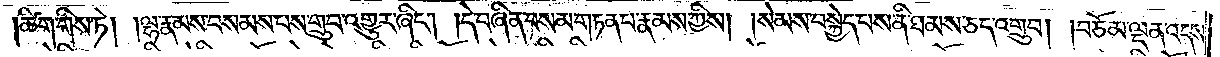།ཚིག་གིས་ཏེ། །ལྷ་རྣམས་བསམས་པས་གྲུབ་འགྱུར་ཞིང༌། །དེ་བཞིན་བསམ་གཏན་པ་རྣམས་ཀྱིས། །སེམས་བསྐྱེད་པས་ནི་ཐམས་ཅད་འགྲུབ། །བཅོམ་ལྡན་འདས་
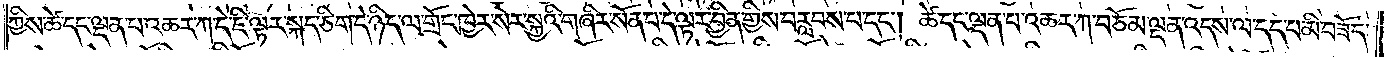ཀྱིས་ཚེ་དང་ལྡན་པ་འཆར་ཀ་དེ་ཇི་ལྟར་སྐད་ཅིག་དེ་ཉིད་ལ་གྲོང་ཁྱེར་སེར་སྐྱའི་གཞིར་སོན་པ་དེ་ལྟར་བྱིན་གྱིས་བརླབས་པ་དང༌། ཚེ་དང་ལྡན་པ་འཆར་ཀ་བཅོམ་ལྡན་འདས་ལ་དད་པ་མི་བཟོད་
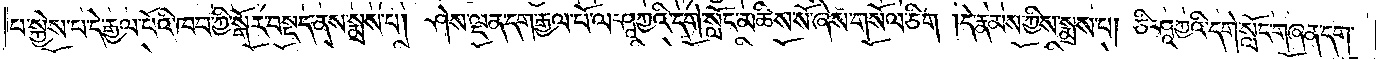པ་སྐྱེས་པ་དེ་རྒྱལ་པོའི་ཁབ་ཀྱི་སྒོར་བསྡད་ནས་སྨྲས་པ། ཤེས་ལྡན་དག་རྒྱལ་པོ་ལ་ཤཱཀྱའི་དགེ་སློང་མཆིས་སོ་ཞེས་གསོལ་ཅིག །དེ་རྣམས་ཀྱིས་སྨྲས་པ། ཅི་ཤཱཀྱའི་དགེ་སློང་གཞན་དག་
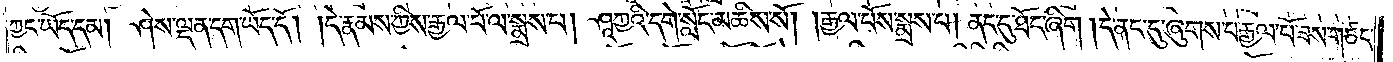ཀྱང་ཡོད་དམ། ཤེས་ལྡན་དག་ཡོད་དོ། །དེ་རྣམས་ཀྱིས་རྒྱལ་པོ་ལ་སྨྲས་པ། ཤཱཀྱའི་དགེ་སློང་མཆིས་སོ། །རྒྱལ་པོས་སྨྲས་པ། ནང་དུ་ཐོང་ཞིག །དེ་ནང་དུ་ཞུགས་པ་རྒྱལ་པོ་ཟས་གཙང་
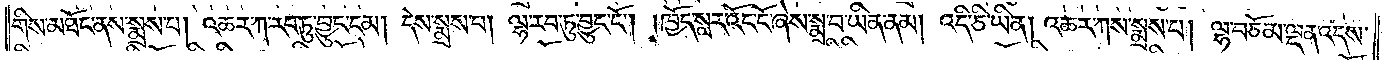གིས་མཐོང་ནས་སྨྲས་པ། འཆར་ཀ་རབ་ཏུ་བྱུང་ངམ། དེས་སྨྲས་པ། ལྷ་རབ་ཏུ་བྱུང་ངོ༌། །ཁྱོད་སླར་འོང་ངོ་ཞེས་སྨྲ་བ་ཡིན་ནམ། འདི་ཅི་ཡིན། འཆར་ཀས་སྨྲས་པ། ལྷ་བཅོམ་ལྡན་འདས་
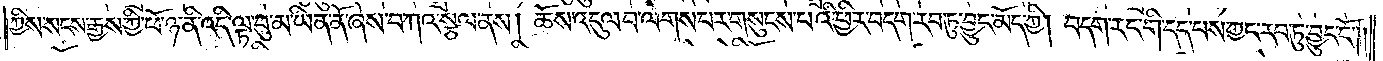ཀྱིས་སངས་རྒྱས་ཀྱི་ཕོ་ཉ་ནི་འདི་ལྟ་བུ་མ་ཡིན་ནོ་ཞེས་བཀའ་སྩལ་ནས། ཆོས་འདུལ་བ་ལེགས་པར་གསུངས་པའི་ཕྱིར་བདག་རབ་ཏུ་བྱུང་མོད་ཀྱི། བདག་རང་གི་དད་པས་ཀྱང་རབ་ཏུ་བྱུང་ངོ༌༎
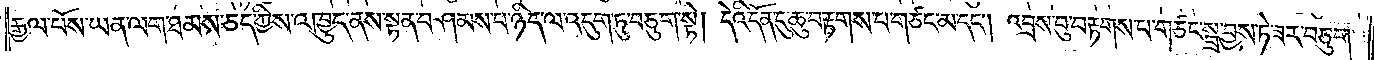རྒྱལ་པོས་ཡན་ལག་ཐམས་ཅད་ཀྱིས་འཁྱུད་ནས་སྟན་བཤམས་པ་ཉིད་ལ་འདུག་ཏུ་བཅུག་སྟེ། དེའི་དོན་དུ་ཆུ་བརྟགས་པ་གཙང་མ་དང༌། འབྲས་བུ་བརྟགས་པ་གཙང་སྦྲ་བྱས་ཏེ་ཟར་བཅུག་
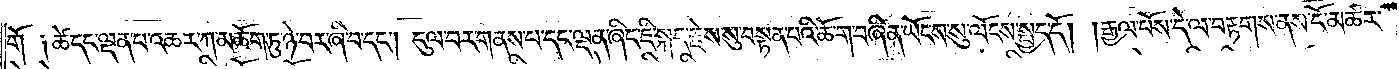གོ  ༑ཚེ་དང་ལྡན་པ་འཆར་ཀ་མཆོག་ཏུ་ཉེ་བར་ཞི་བ་དང༌། དུལ་བར་གནས་པ་དང་ལྡན་ཞིང་ཇི་སྐད་རྗེས་སུ་བསྟན་པའི་ཆོ་ག་བཞིན་ཡོངས་སུ་ལོངས་སྤྱད་དོ། །རྒྱལ་པོས་དེ་ལ་བརྟགས་ནས་ངོ་མཚར་
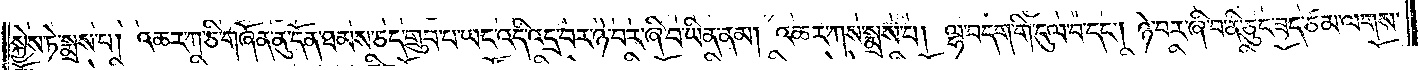སྐྱེས་ཏེ་སྨྲས་པ། འཆར་ཀ་ཅི་གཞོན་ནུ་དོན་ཐམས་ཅད་གྲུབ་པ་ཡང་འདི་འདྲ་བར་ཉེ་བར་ཞི་བ་ཡིན་ནམ། འཆར་ཀས་སྨྲས་པ། ལྷ་བདག་གི་དུལ་བ་དང༌། ཉེ་བར་ཞི་བ་ནི་ཅུང་ཟད་ཙམ་ལགས་
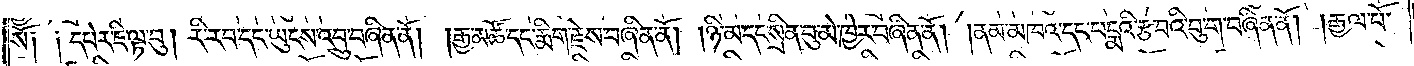སོ༑ ༑དཔེར་ཇི་ལྟ་བུ། རི་རབ་དང་ཡུངས་འབྲུ་བཞིན་ནོ། །རྒྱ་མཚོ་དང་རྨིག་རྗེས་བཞིན་ནོ། །ཉི་མ་དང་སྲིན་བུ་མེ་ཁྱེར་བཞིན་ནོ། །ནམ་མཁའ་དང་པདྨའི་རྩ་བའི་བུ་ག་བཞིན་ནོ། །རྒྱལ་པོ་
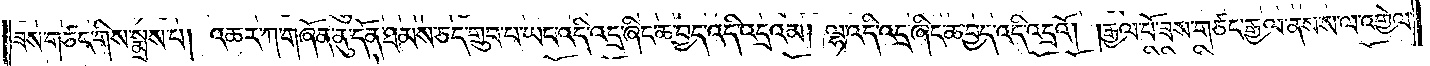ཟས་གཙང་གིས་སྨྲས་པ། འཆར་ཀ་གཞོན་ནུ་དོན་ཐམས་ཅད་གྲུབ་པ་ཡང་འདི་འདྲ་ཞིང་ཆ་བྱད་འདི་འདྲའམ། ལྷ་འདི་འདྲ་ཞིང་ཆ་བྱད་འདི་འདྲའོ། །རྒྱལ་པོ་ཟས་གཙང་རྒྱལ་ནས་ས་ལ་འགྱེལ་
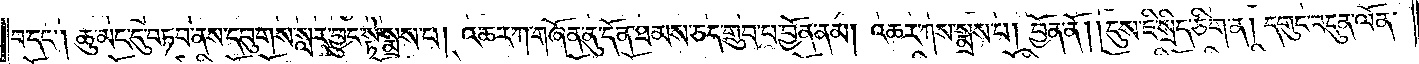བ་དང༌། ཆུ་མང་དུ་བཏབ་ནས་དབུགས་སླར་བྱུང་སྟེ་སྨྲས་པ། འཆར་ཀ་གཞོན་ནུ་དོན་ཐམས་ཅད་གྲུབ་པ་བྱོན་ནམ། འཆར་ཀས་སྨྲས་པ། བྱོན་ནོ། །དུས་ཇི་སྲིད་ཅིག་ན། དགུང་བདུན་ལོན་
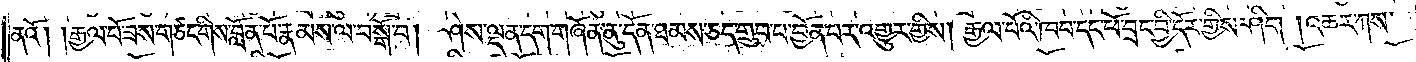ནའོ། །རྒྱལ་པོ་ཟས་གཙང་གིས་བློན་པོ་རྣམས་ལ་བསྒོ་བ། ཤེས་ལྡན་དག་གཞོན་ནུ་དོན་ཐམས་ཅད་གྲུབ་པ་བྱོན་པར་འགྱུར་གྱིས། རྒྱལ་པོའི་ཁབ་དང་ཕོ་བྲང་བྱི་དོར་གྱིས་ཤིག །འཆར་ཀས་
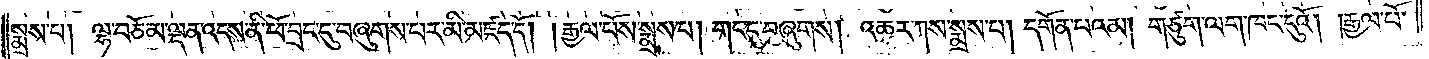སྨྲས་པ། ལྷ་བཅོམ་ལྡན་འདས་ནི་ཕོ་བྲང་དུ་བཞུགས་པར་མི་མཛད་དོ། །རྒྱལ་པོས་སྨྲས་པ། གང་དུ་བཞུགས། འཆར་ཀས་སྨྲས་པ། དགོན་པའམ། གཙུག་ལག་ཁང་དུའོ། །རྒྱལ་པོ་
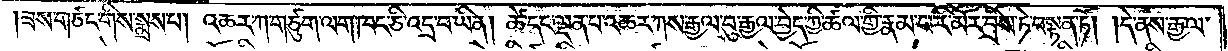།ཟས་གཙང་གིས་སྨྲས་པ། འཆར་ཀ་གཙུག་ལག་ཁང་ཅི་འདྲ་བ་ཡིན། ཚེ་དང་ལྡན་པ་འཆར་ཀས་རྒྱལ་བུ་རྒྱལ་བྱེད་ཀྱི་ཚལ་གྱི་རྣམ་པ་རི་མོར་བྲིས་ཏེ་བསྟན་ཏོ། །དེ་ནས་རྒྱལ་
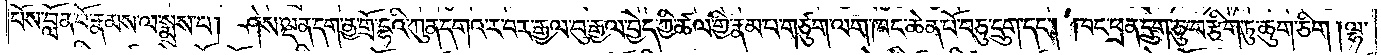པོས་བློན་པོ་རྣམས་ལ་སྨྲས་པ། ཤེས་ལྡན་དག་ནྱ་གྲོ་དྷའི་ཀུན་དགའ་ར་བར་རྒྱལ་བུ་རྒྱལ་བྱེད་ཀྱི་ཚལ་གྱི་རྣམ་པ་གཙུག་ལག་ཁང་ཆེན་པོ་བཅུ་དྲུག་དང༌། ཁང་ཕྲན་དྲུག་ཅུ་བརྩིག་ཏུ་ཆུག་ཅིག །ལྷ་
